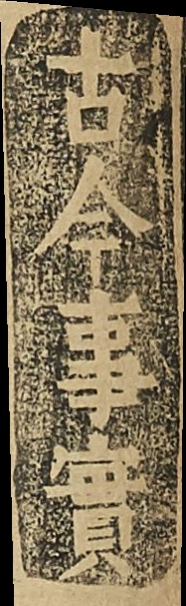古今事實
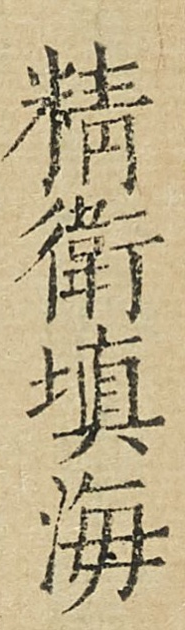精衛填海
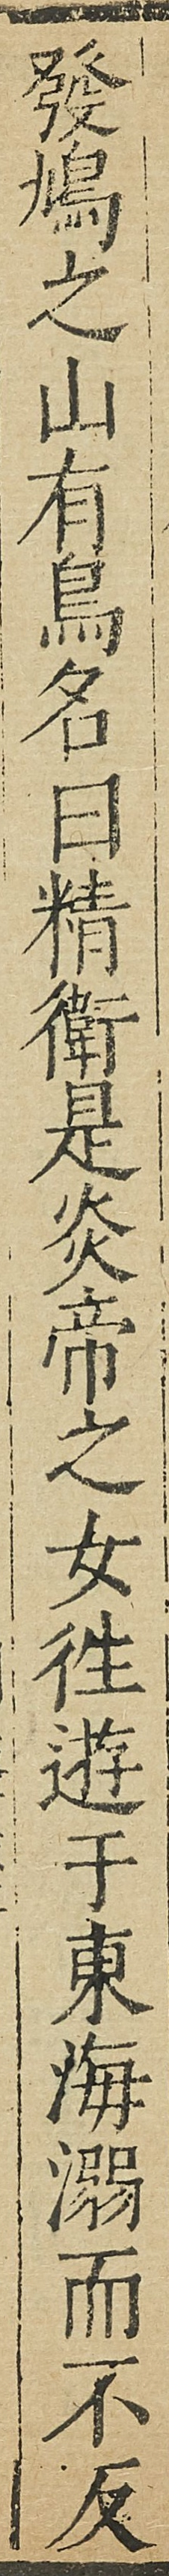發鳩之山有鳥名曰精衛是炎帝之女徃遊于東海溺而不反
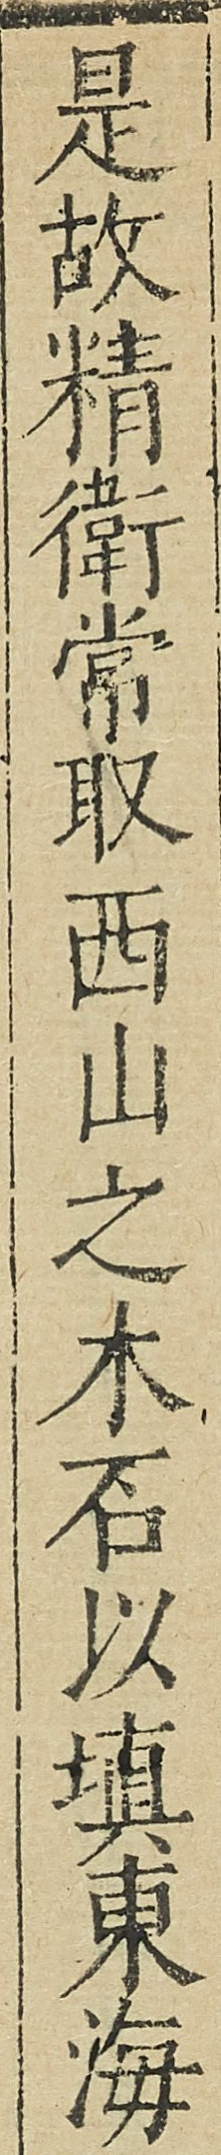是故精衛常取西山之木石以填東海
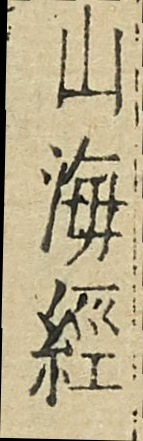山海經
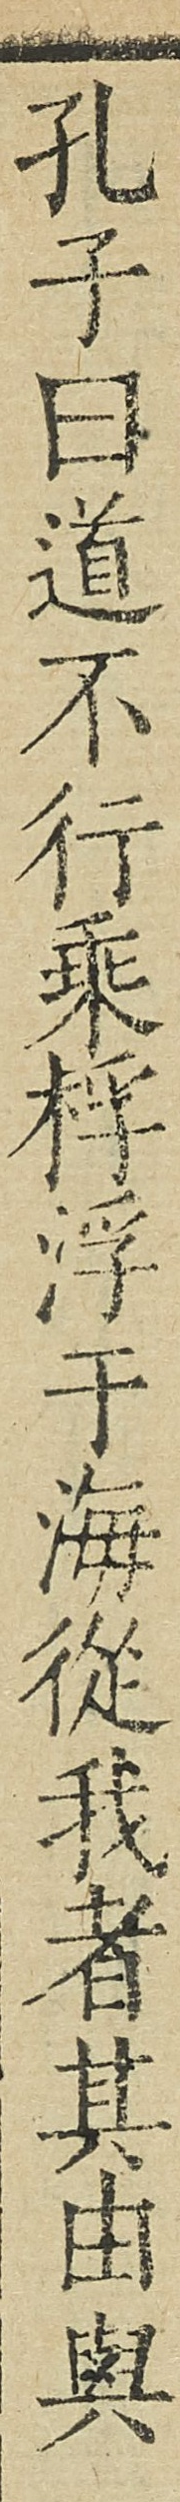孔子曰道不行乘桴浮于海從我者其由與
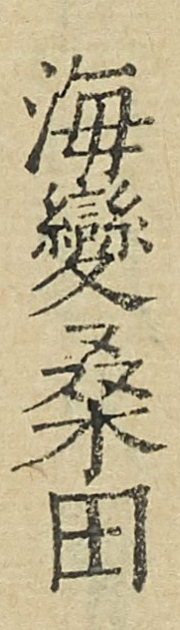海變桑田
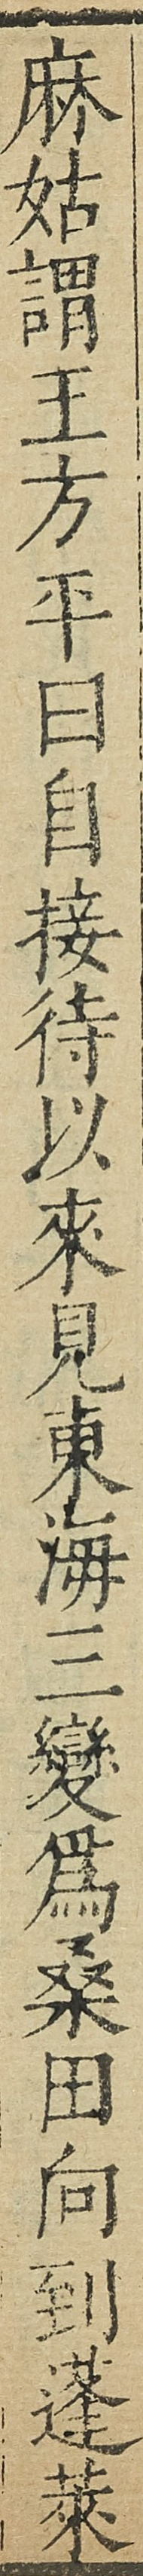麻姑謂王方平曰自接待以來見東海三變為桑田向到蓬萊
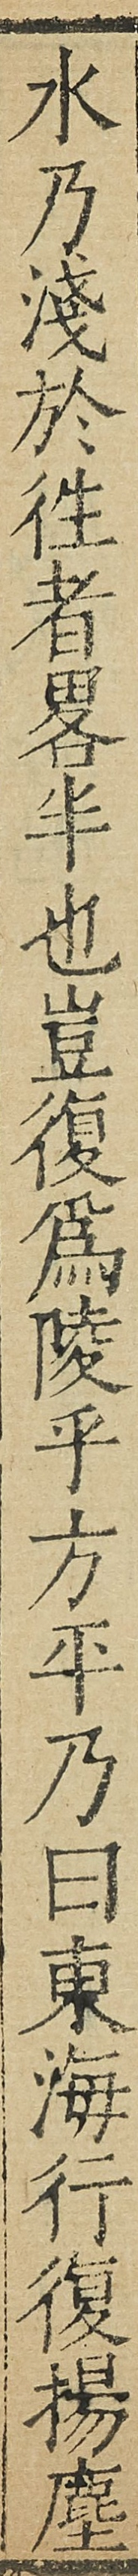水乃淺於徃者畧半也豈復為陵乎方平乃曰東海行復揚塵
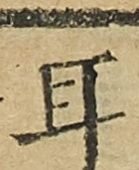耳
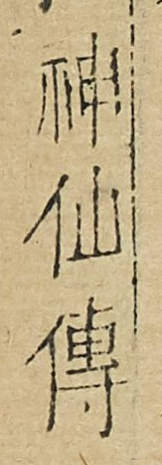神仙傳
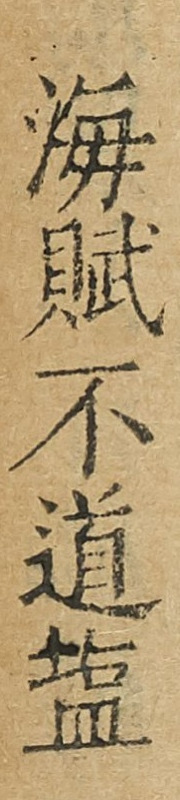海賦不道鹽
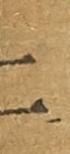十一
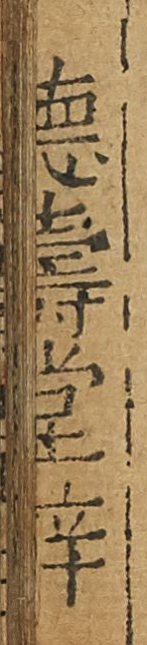德壽堂梓
